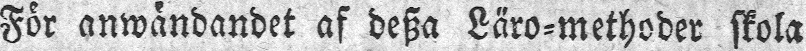För anwändandet af desza Läro-methoder skola
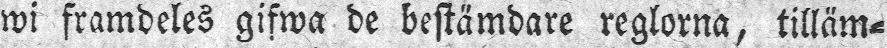wi framdeles gifwa de bestämdare reglorna, tilläm-
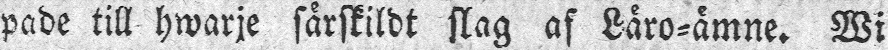pade till hwarje särskildt slag af Läro-ämne. Wi
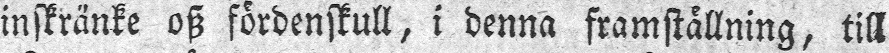inskränke osz fördenskull, i denna framställning, till
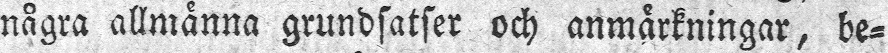några allmänna grundsatser och anmärkningar, be-
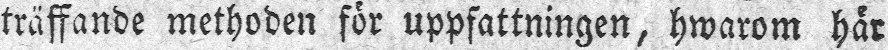träffande methoden för uppfattningen, hwarom här
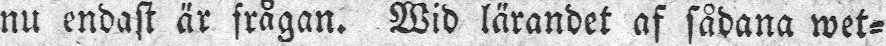nu endast är frågan. Wid lärandet af sådana wet-
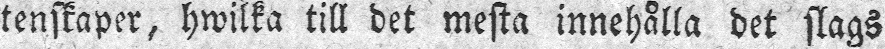tenskaper, hwilka till det mesta innehålla det slags
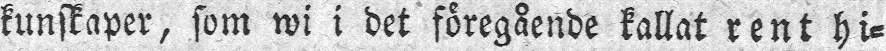kunskaper, som wi i det föregående kallat rent hi-
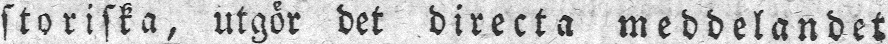storiska, utgör det directa meddelandet
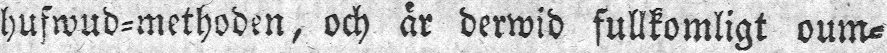hufwud-methoden, och är derwid fullkomligt oum-
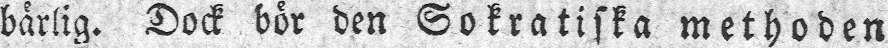bärlig. Dock bör den Sokratiska methoden
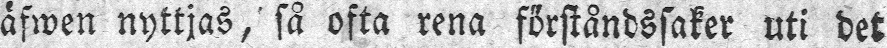äfwen nyttjas, så ofta rena förståndssaker uti det
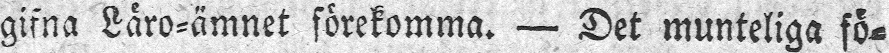gifna Läro-ämnet förekomma. — Det munteliga fö-
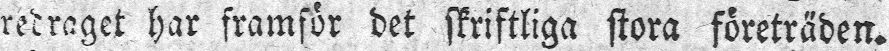redraget har framför det skriftliga stora företräden.
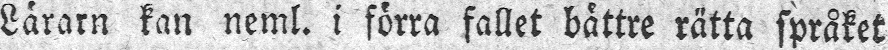Lärarn kan neml. i förra fallet bättre rätta språket
